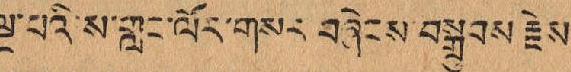ལྔ་པའི་ས་གླང་ལོར་གསར་བཞེངས་བསྒྲུབས་རྗེས་
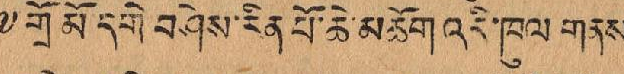༸གྲོ་མོ དགེ བཤེས་རིན་པོ་ཆེ་མཆོག འདི་ཁུལ གནས་
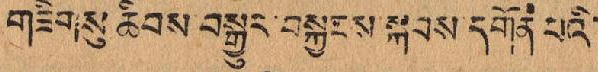གཟིགསུ ཆིབས་བསྒྱུར་བསྐྱར་བསྐྱངས་སྐབས་དགོན་པའི་
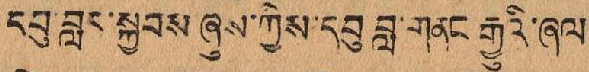དབུ་བླང་སྐྱབས་ཞུས་ཀྱེས་དབུ་བླ་གནང རྒྱུའི་ཞལ་
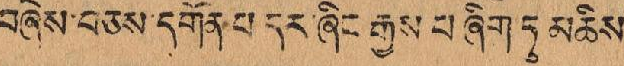བཞེས་བཅས་དགོན་པ་དར་ཞིང་རྒྱས པ་ཞིག་ཏུ་མཆིས
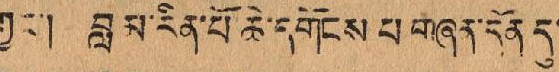ཀྱང་། བླ་མ་རིན་པོ་ཆེ་དགོངས་པ་གཞན་དོན་དུ་
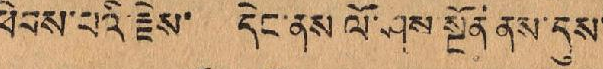ཕེབས་པའི་རྗེས་ དེང་ནས ལོ་ཤས་སྔོན་ནས་དུས་
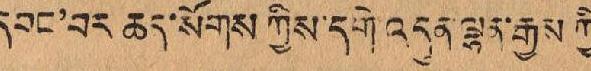དབང'བར ཆད་སོགས་ཀྱིས་དགེ་འདུན་ལྷན་རྒྱས་ཀྱི་
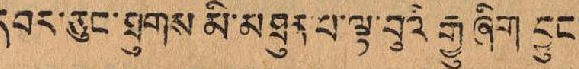དབར་ཅུང་ཐུགས་མི་མཐུན་པ་ལྟ་བུའི་རྒྱུ་ཞིག བྱུང་
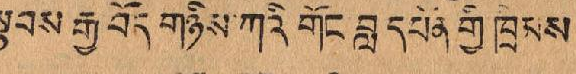སྟབས རྒྱ བོད གཉིས་ཀའི གོང་བླ་དཔོན་གྱི ཁྲིམས་
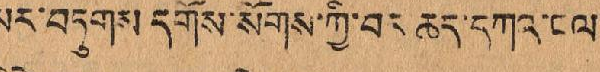སར་བཏུགས་དགོས་སོགས་ཀྱི་བར ཆད་དཀའ་ངལ་
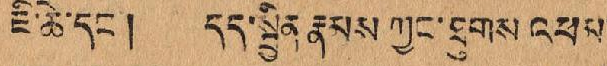ཇི་ཆེ་དང་། དད་སྦྱིན་རྣམས་ཀྱང་ཐུགས འཕམ་
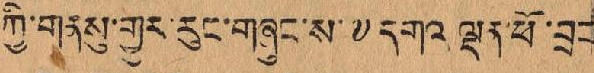ཀྱི་གནམ་གྱུར་རུང་གཞུང་ས་༸དགའ་ལྡན་ཕོ་བྲང་
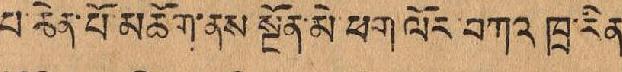པ་ཆེན་པོ་མཆོག་ནས་སྔོན་མེ་ཕག་ལོར་བཀའ་ཁྲ་རིན་
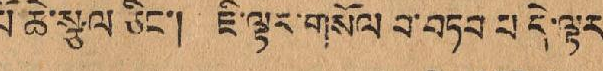པོ་ཆེ་སྩལ ཅིང་། ཇི་ལྟར་གསོལ་བ་བཏབ་པ་དེ་ལྟར་
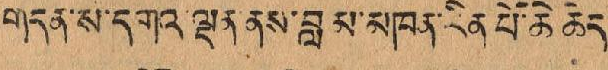གདན་ས་དགའ་ལྡན་ནས་བླ་མ་མཁན་རིན་པོ་ཆེ་ཆེད་
